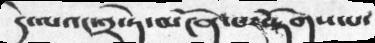དེ་ལའང་༢་ཏེ་མངོན་པར་རྟོགས་པ་
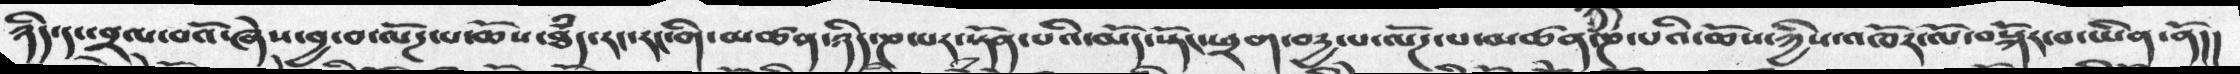ཉིད་དང་་བྲལ་བའོ་ཞེས་བྱ་བ་ལོཌ་པ་ཆོས་ཐཾད་རང་རང་གི་མཚན་ཉིད་ཎ་པར་སྟོན་པའི་མདོ་སྟོང་ཕྲག་བདྱ་པ་ལོཌ་པ་མཚན་ཉིད་ཎ་པའི་ཆོས་ཀྱིས་འཁོར་ལོ་བསྐོར་བ་ཡིན་ནོ།།
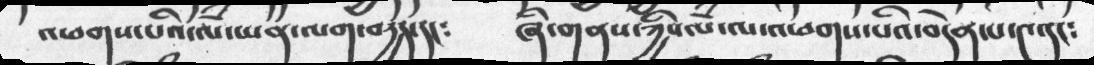འཕགས་པའི་ལཾ་ཡན་ལག་བདྱད་དང༴   ཞི་གནས་ཀྱིས་ལཾ་ལ་འཕགས་པའི་བདེན་པ་༤་དང༴
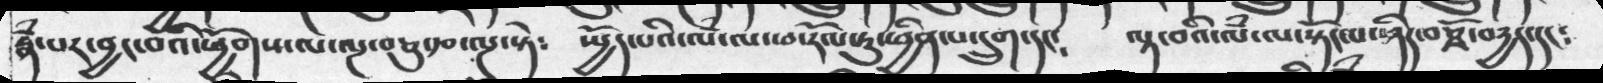རྣཾ་པར་བྱང་བའི་ཕྱོགས་ལ་ལྔ་བཅུ་རྩ་ལྔ་སྟེ༴  སྤྱོད་པའི་ལཾ་ལ་ཕ་རོལ་ཏུ་ཕྱིན་པ་དྲུག་དང༴   ལྟ་བའི་ལཾ་ལ་སྟོང་པ་ཉིད་བཅྭོ་བདྱད་དང༴
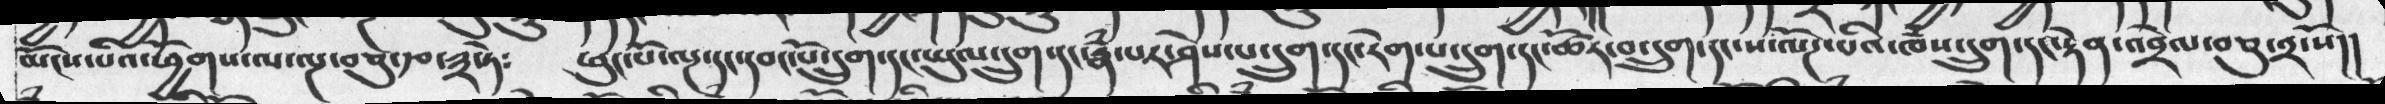མངོས་པའི་ཕྱོགས་ལ་ལྔ་བཅུ་རྩ་༣་ཏེ༴  ཕུང་པོ་ལྔ་དང་དབང་པོ་དྲུག་དང་ཡུལ་དྲུག་དང་རྣཾ་པར་ཤེས་པ་དྲུག་དང་རེག་པ་དྲུག་དང་ཚོར་བ་དྲུག་དང་ས་ལོཌ་པའི་ཁཾས་དྲུག་དང་རྟེན་འབྲེལ་བཅུ་༢་སོ།།
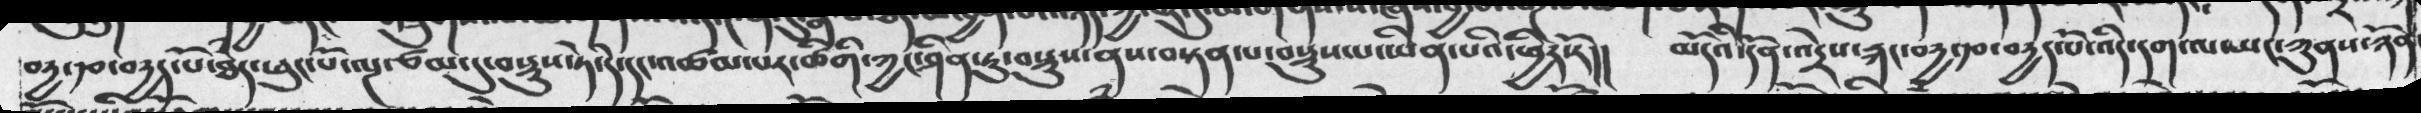བདྱ་རྩ་བདྱད་པོ་ཐཾད་ཕུང་པོ་ལྔ་ཙམ་དུ་བསྡུས་ཏེ་དེ་དང་འཚམས་པར་ཚིགི་ཀྱང་ཤིན་ཏུ་བསྡུས་ནས་བསྟན་པ་བསྡུས་པ་ཡིན་པའི་ཕྱིར་རོ།།  མདོའི་དོན་འདྲེས་རྐང་བདྱ་རྩ་བདྱད་པོ་འདི་དག་ལས་ཡང་ཀུནས་ཉོན་
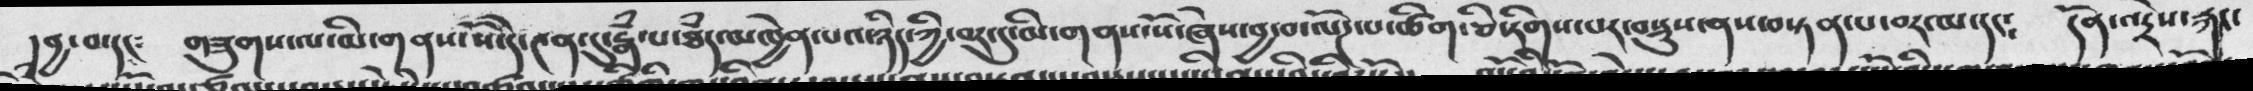།བྱ་བ་དང༴  གཟུགས་ལ་མི་གནས་སོ་དེ་༤ན་དུ་རྣཾ་པ་ཐཾད་མཁྱེན་པའ་ཉིད་ཀྱི་བར་དུ་མི་གནས་སོ་ཞེས་བྱ་བ་ལོཌ་པ་ཚིག་ཅི་རིགས་པར་བསྡུས་ནས་བསྟན་པ་བར་མ་དང༴  དོན་འདྲེས་རྐང་
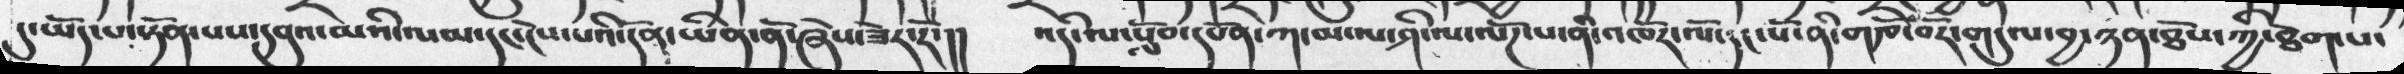དུ་ཡོད་པ་སྟོན་པས་དབུའ་མེའི་ལམ་དང་ངེས་པའི་དོན་ཡིན་ནོ་ཞེས་ཟེར་རོ་།།  འདི་ལ་སློབ་དཔོན་ཀ་མ་ལ་ཤི་ལ་ལོཌ་པ་ནི་འཁོར་ལོ་དང་པོ་ནི་གརྩོ་བོར་གདུལ་བྱ་ཉན་ཐོས་ཀྱི་ཐེག་པ་
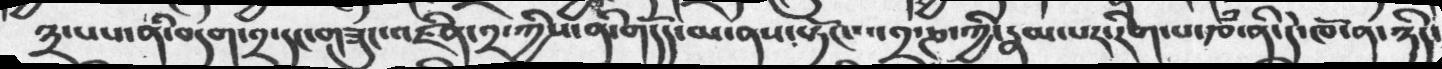༣་པས་ནི་བདག་༢་དང་གཟུང་འཛིན་༢་ཀྱིས་ན་གདོད་མ་ནས་སྟོང་པ་༢་ཎ་ཀྱི་རྣམ་པར་རིག་པ་རྩཾ་ནི་དེ་ཁོ་ན་ཉིད་
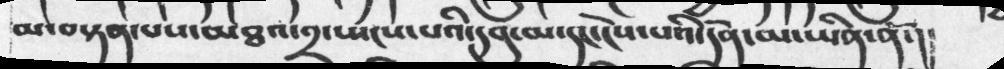མ་བསྟན་པས་མཐའ་༢་སྤངས་པའི་དབུ་མ་དང་ེངས་པའི་དོན་མ་ཡིན་ནོ་།།
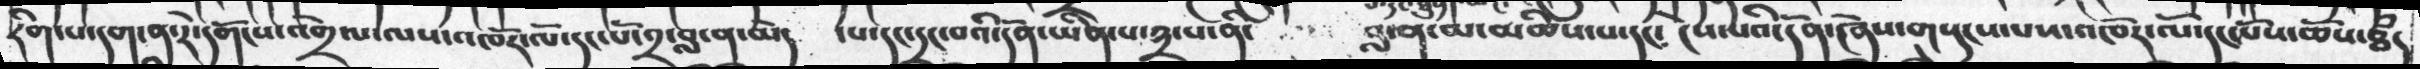རིག་པ་དག་ན་རེ་དགོངས་འགྲེལ་ལས་འཁོར་ལོ་དང་པོ་༢་བླ་ན་མེད      ་པ་དང་དྲང་བའི་དོན་ཡིན་པ་༣་པ་ནི   བླ་ན་མ་མཆིས་པ་དང༴  ངེས་པའི་དོན་ཞེས་གསུངས་པས་འཁོར་ལོ་དང་པོས་ཆོས་ཐཾད
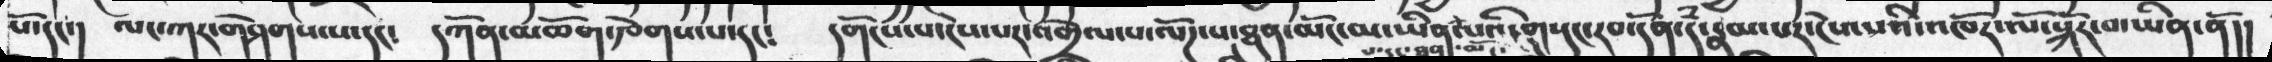པོ་དང།  ལང་ཀར་གཤེགས་པ་དང༴  དཀོན་མཆོག་རྩེགས་པ་དང༴  དགོངས་པ་ངེས་པར་འགྲོལ་པ་ལོཌ་པ་ཐུན་མོང་མ་ཡིན་པའི་གསུང་རབ་དོན་རྣམ་པར་ངེས་པའི་འཁོར་ལ་སྐོར་བ་ཡིན་ནོ།།
